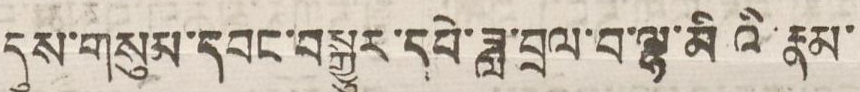དུས་གསུམ་དབང་བསྒྱུར་དཔེ་ཟླ་བྲལ་བ་ལྷ་མིའི་རྣམ་
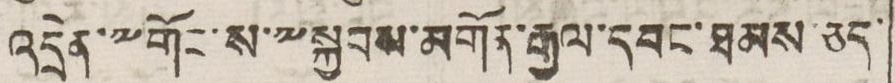འདྲེན་༸གོང་ས་༸སྐྱབས་མགོན་རྒྱལ་དབང་ཐམས ཅད་
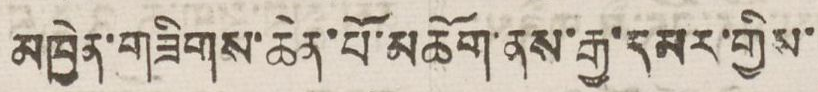མཁྱེན་གཟིགས་ཆེན་པོ་མཆོག་ནས་རྒྱ་དམར་གྱིས་
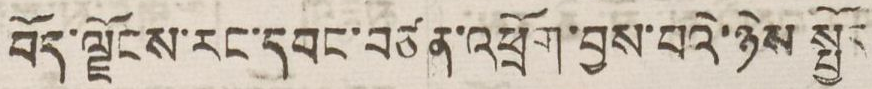བོད་ལྗོངས་རང་དབང་བཙན་འཕྲོག་བྱས་པའི་ཉེས སྤྱོད་
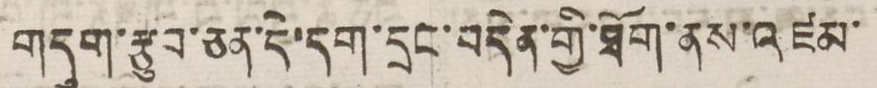གདུག་རྩུབ་ཅན་དེ་དག་དྲང་བདེན་གྱི་ཐོག་ནས་འཛམ་
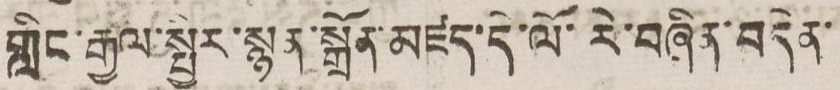གླིང་རྒྱལ་སྤྱར་སྙན་སྒྲོན་མཛད་དེ་ལོ་རེ་བཞིན་བདེན་
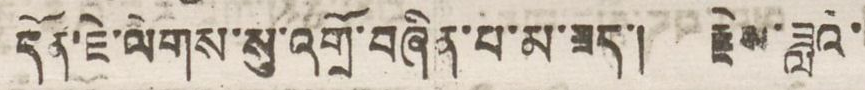དོན་ཇེ་ལེགས་སུ་འགྲོ་བཞིན་པ་མ་ཟད་། རྗེས་ཟླའི་
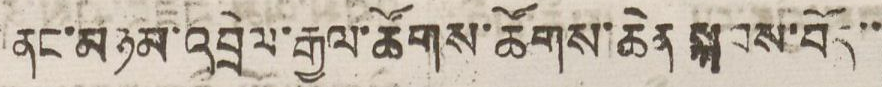ནང་མཉམ་འབྲེལ་རྒྱལ་ཚོགས་ཆེན སྐབས་བོད་་
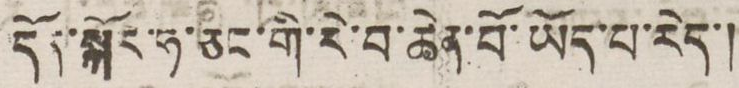དོན་སྐོར་ཧ་ཅང་གི་རེ་བ་ཆེན་པོ་ཡོད་པ་རེད་།
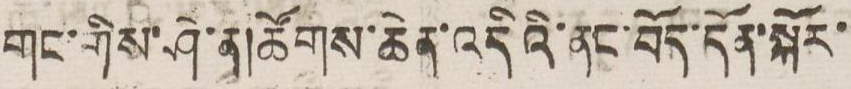གང་གིས་ཤེ་ན།ཚོགས་ཆེན་འདིའི་ནང་བོད་དོན་སྐོར་
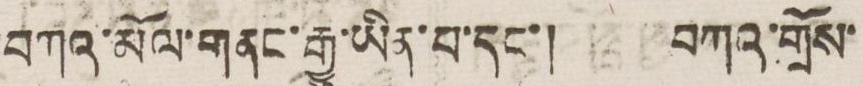བཀའ་མོལ་གནང་རྒྱུ་ཡིན་པ་དང་། བཀའ་གྲོས་
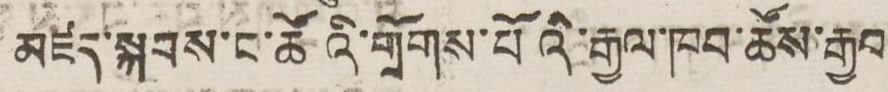མཛད་སྐབས་ང་ཚོའི་གྲོགས་པོའི་རྒྱལ་ཁབ་ཚོས་རྒྱབ་
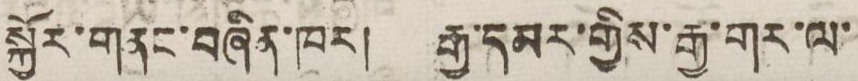སྐྱོར་གནང་བཞིན་ཁར། རྒྱ་དམར་གྱིས་རྒྱ་གར་ལ་
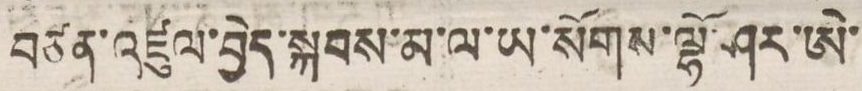བཙན་འཛུལ་བྱེད་སྐབས་མ་ལ་ཡ་སོགས་ལྷོ་ཤར་ཨེ་
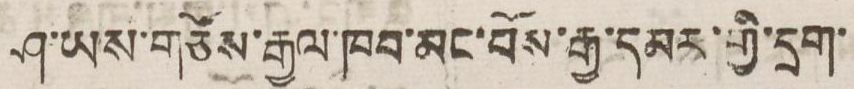ཤ་ཡས་གཙོས་རྒྱལ་ཁབ་མང་པོས་རྒྱ་དམར་གྱི་དྲག་
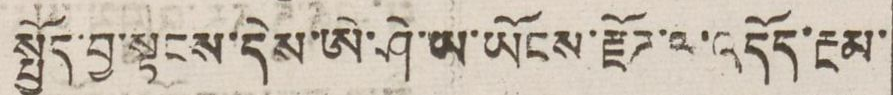སྤྱོད་བྱ་སྟབས་དེས་ཨེ་ཤེ་ཡ་ཡོངས་རྫོཊ་ལ་འདོད་རྔམ་
